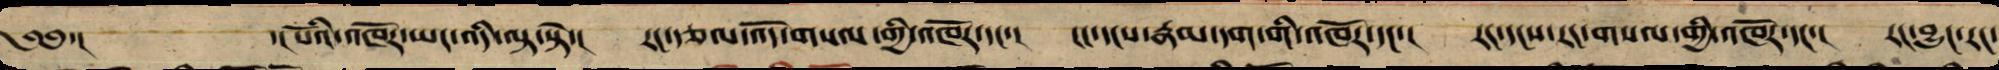༄༅་། ་།པོའི་འཁོར་ཡང་འདི་ལྟ་སྟེ་། རང་རྩལ་འོད་གསལ་གྱི་འཁོར་དང་། ངང་དངས་རྣམ་དག་གི་འཁོར་དང་། རང་དངས་རང་གསལ་གྱི་འཁོར་དང་། རང་བྱུང་རང་
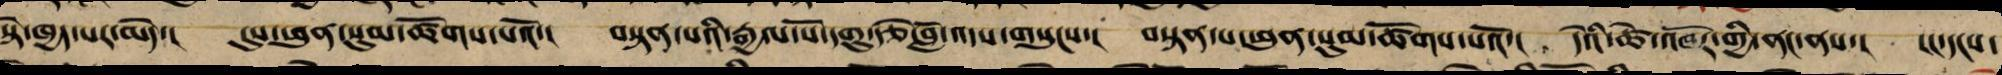སྟེ་ཁྱད་པར་མེད་། དུས་ཕུན་སུམ་ཚོགས་པའོ་། བསྟན་པའི་རྒྱལ་པོ་དགུ་རྩེ་བློ་འདས་གསུངས་། བསྟན་པ་ཕུན་སུམ་ཚོགས་པའོ་། དེའི་ཚེ་འཁོར་གྱི་ནང་ནས་། ངང་དངས་
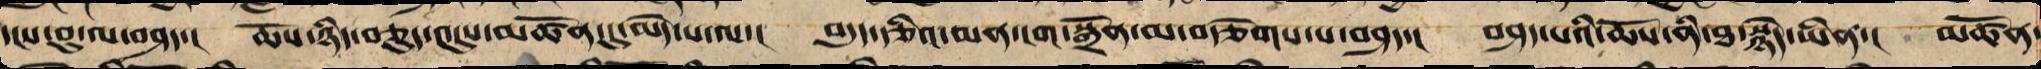དངས་བུ་ལ་བཤད་། ཆོས་ཉིད་བཅུད་འདུས་མཚོན་དུ་མེད་པ་ལ་། བདུད་རྩིའི་མན་ངག་སྒྲོན་མ་བརྩེགས་པ་བཤད་། བཤད་པའི་ཆོས་ནི་ཐ་སྙད་ཡིན་། མཚོན
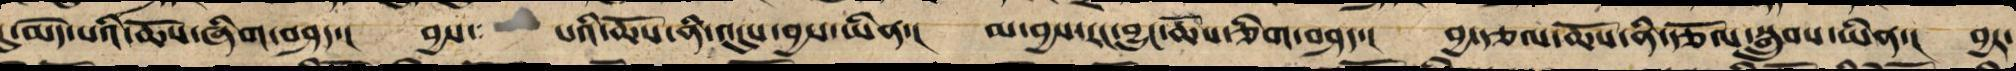་མེད་པའི་ཆོས་ཞིག་བཤད་། བྱས་ པའི་ཆོས་ནི་འདུས་བྱས་ཡིན་། མ་བྱས་རང་བྱུང་ཆོས་ཅིག་བཤད་། བྱ་རྩལ་ཆོས་ནི་རྩོལ་སྒྲུབས་ཡིན་། བྱར་
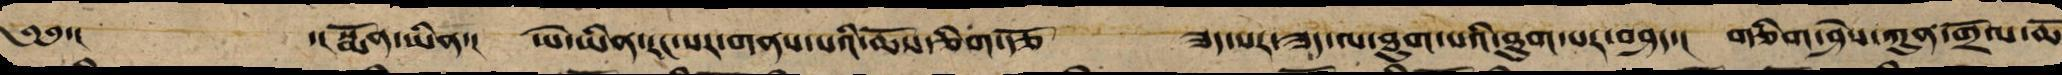༄༅་། ་།སྨོན་ཡིན་། ཡེ་ཡིན་རང་སར་གནས་པའི་ཆོས་ཅིག་རྩོ ཟད་སར་ཟད་ལ་ཐུག་པའི་ཐུག་པར་བཤད་། གཅིག་ཤེས་ཀུན་གྲོལ་ཆོ
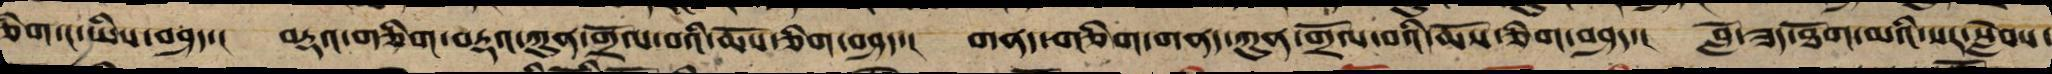ཅིག་ང་ཡིས་བཤད་། བརྡའ་གཅིག་བརྡའ་ཀུན་གྲོལ་བའི་ཆོས་ཅིག་བཤད་། གནད་གཅིག་གནད་ཀུན་གྲོལ་བའི་ཆོས་ཅིག་བཤད་། བློ་ཟད་ཐོག་མའི་སར་སླེབས་
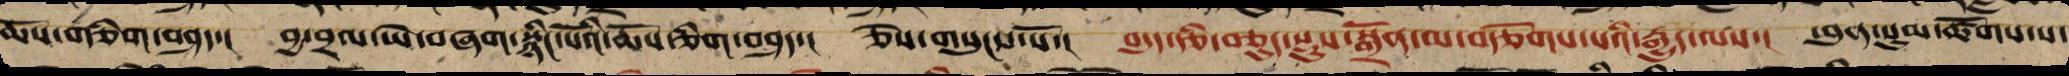ཆོས་གཅིག་བཤད་། བྱ་བྲལ་ཡེ་བཞག་སྙིང་པོའི་ཆོས་ཅིག་བཤད་། ཅེས་གསུངས་སོ་། བདུད་རྩི་བཅུད་སྡུས་སྒྲོན་མ་བརྩོགས་པའི་རྒྱུད་ལས་། ཕུན་སུམ་ཚོགས་པ་
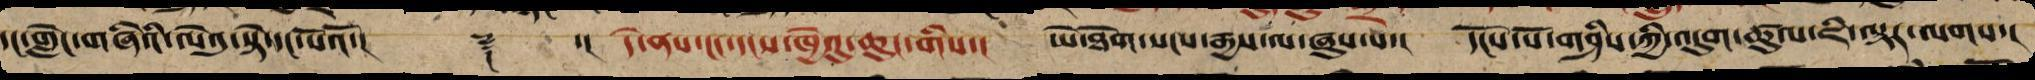དང་གླེང་གཞིའི་ལེའུ་སྟེ་དང་པོའོ་།། ༈ ་། དེ་ནས་ངང་དངས་ཁྱེའུ་ཆུང་གིས་། ཡེ་ཐོག་སངས་རྒྱས་ལ་ཞུས་པ་། དངོས་པོ་གཤིས་ཀྱི་འདུག་ཚུལ་ཇི་ལྟར་ལགས་།
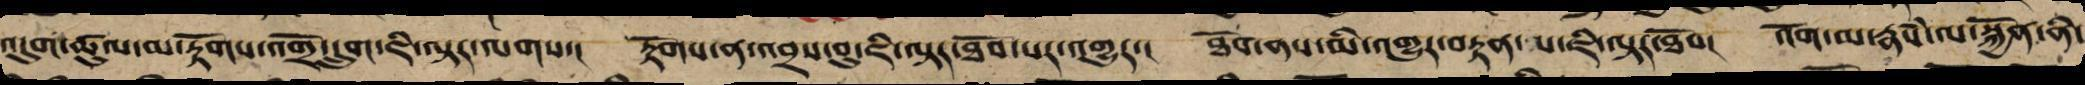འདུག་ཚུལ་མ་རྟོགས་འགྲོ་དྲུག་ཇི་ལྟར་ལགས་། རྟོགས་ན་འབྲས་བུ་ཇི་ལྟར་ཐོབ་པར་འགྱུར་། ཐོབ་ནས་མི་འགྱུར་བརྟན་པ་ཇི་ལྟར་ཐོབ། འོག་མ་རྣཾས་ལ་སྐྱོན་ནི་
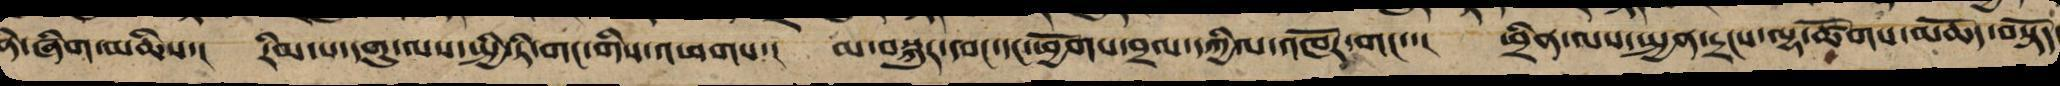་ཞིག་མཆིས་། རིམ་པ་དགུ་ལས་སྤྱི་ཏི་གང་གིས་འཕགས་། མ་བསྐུར་དབང་དང་ཕྱོགས་བྲལ་དཀྱིལ་འཁོར་གང་་། ཕྲིན་ལས་སྤྱན་དྲངས་ལྷ་ཚོགས་མཆོད་བསྟོད
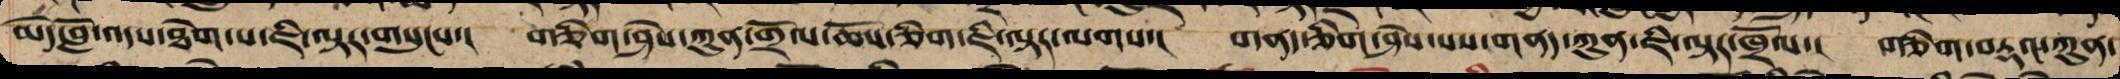མེད་བློ་འདས་ཐེག་པ་ཇི་ལྟར་གསུངས་། གཅིག་ཤེས་ཀུན་གྲོལ་ཆོས་གཅིག་ཇི་ལྟར་ལགས་། གནད་གཅིག་ཤེས་པས་གནད་ཀུན་ཇི་ལྟར་ཁྲོལ་། གཅིག་བརྡའ་ཀུན་
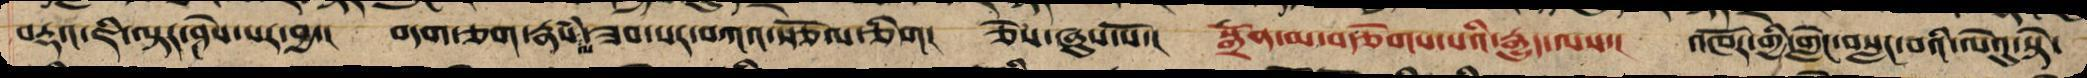བརྡའ་ཇི་ལྟར་ཤེས་པར་བྱ། །བདག་ཅག་རྣམས་ལ་ཟབ་པར་བཀའ་སྩོལ་ཅིག །ཅེས་ཞུས་སོ། །སྒྲོན་མ་བརྩེགས་པའི་རྒྱུད་ལས། འཁོར་གྱིས་གླེང་སློང་བའི་ལེའུ་སྟེ་
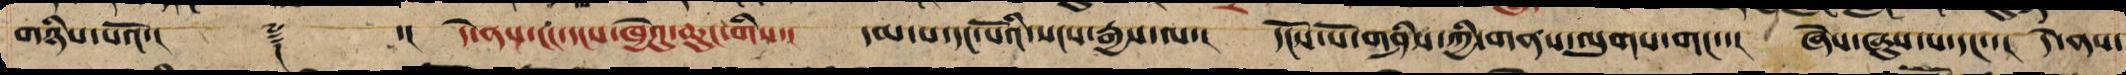གཉིས་པའོ་།། ༈ ་། དེ་ནས་ངང་དངས་ཁྱེའུ་ཆུང་གིས་། དམ་པ་དང་པོའི་སངས་རྒྱས་ལ་། དངོས་པོ་གཤིས་ཀྱི་གནས་ལུགས་གང་་། ཞེས་ཞུས་པ་དང་་། དེ་ནས་
